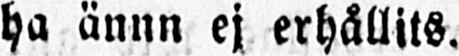ha ännu ej erhållits.
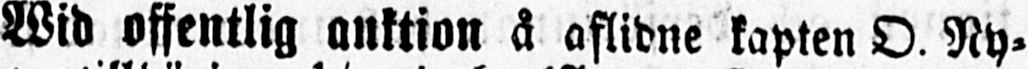Wid offentlig auktion å aflidne kapten O. Ny-
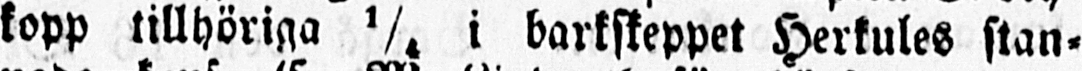kopp tillhöriga ¼ i barkskeppet Herkules stan-
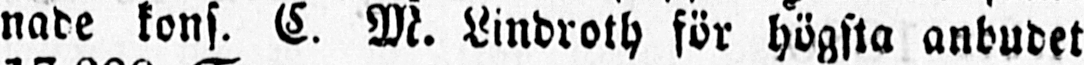nade kons. C. M. Lindroth för högsta anbudet
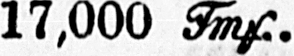17,000 Fmk.
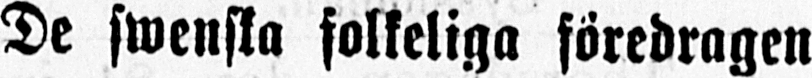De swenska folkeliga föredragen
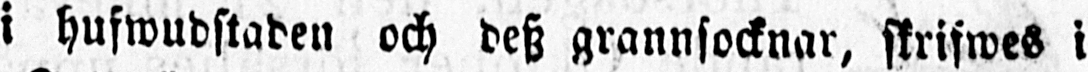i hufwudstaden och desz grannsocknar, skrifwes i
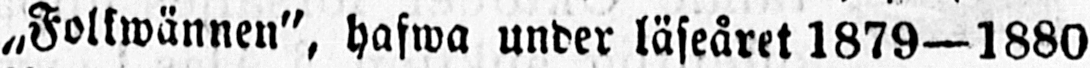„Folkwännen", hafwa under läseåret 1879—1880
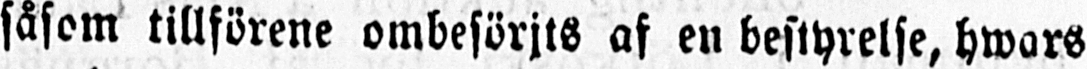såsom tillförene ombesörjts af en bestyrelse, hwars
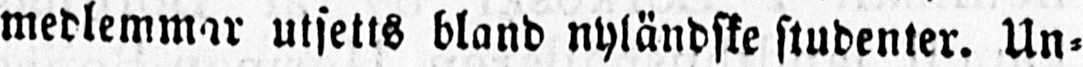medlemmar utsetts bland nyländske studenter. Un-
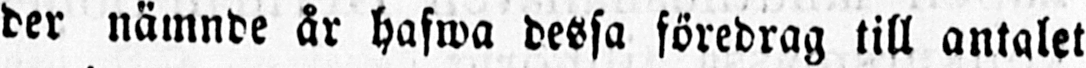der nämnde år hafwa dessa föredrag till antalet
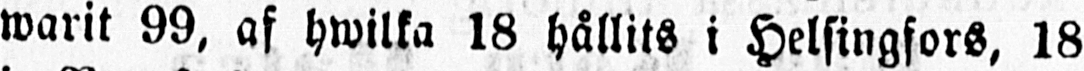warit 99, af hwilka 18 hållits i Helsingfors, 18
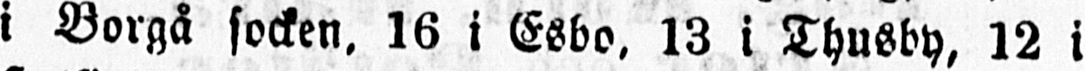i Borgå socken, 16 i Esbo, 13 i Thusby, 12 i
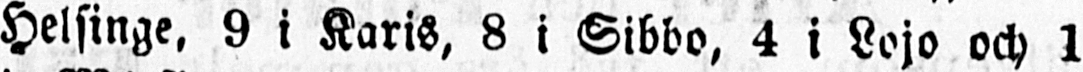Helsinge, 9 i Karis, 8 i Sibbo, 4 i Lojo och 1
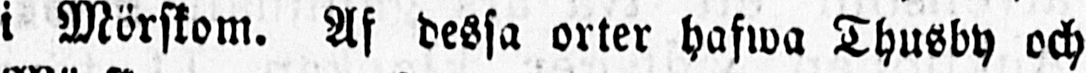i Mörskom. Af dessa orter hafwa Thusby och
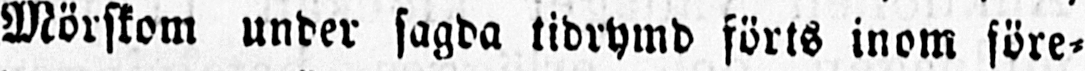Mörskom under sagda tidrymd förts inom före-
